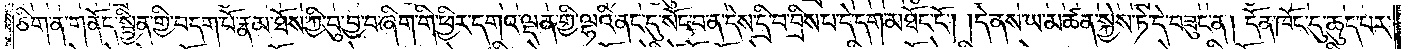ཅིག་ན་གནོད་སྦྱིན་གྱི་བདག་པོ་རྣམ་ཐོས་ཀྱི་བུ་བྱ་བ་ཞིག་གི་ཕྱིར་དགའ་ལྡན་གྱི་ལྷའི་ནང་དུ་སོང་བ་ན་དེས་དྲི་བ་བྲིས་པ་དེ་དག་མཐོང་ངོ༌། །དེ་ནས་ཡ་མཚན་སྐྱེས་ཏེ་དེ་བཟུང་ན། དོན་ཁོང་དུ་ཆུད་པར་
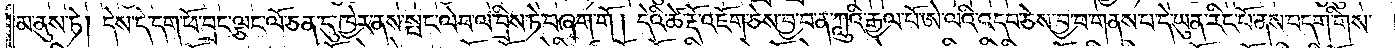མ་ནུས་ཏེ། དེས་དེ་དག་ཕོ་བྲང་ལྕང་ལོ་ཅན་དུ་ཁྱེར་ནས་སྤང་ལེབ་ལ་བྲིས་ཏེ་བཞག་གོ། དེའི་ཚེ་རྡོ་འཇོག་ཅེས་བྱ་བ་ན་ཀླུའི་རྒྱལ་པོ་ཨེ་ལའི་འདབ་ཅེས་བྱ་བ་གནས་པ་དེ་ཡུན་རིང་པོ་ནས་བདག་གིས་
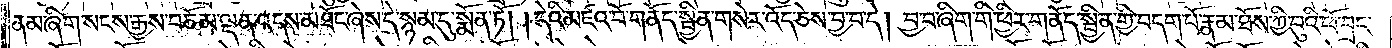ནམ་ཞིག་སངས་རྒྱས་བཅོམ་ལྡན་འདས་མཐོང་ཞེས་དེ་སྙམ་དུ་སྨོན་ཏོ། །དེའི་མཛའ་བོ་གནོད་སྦྱིན་གསེར་འོད་ཅེས་བྱ་བ་དེ། བྱ་བ་ཞིག་གི་ཕྱིར་གནོད་སྦྱིན་གྱི་བདག་པོ་རྣམ་ཐོས་ཀྱི་བུའི་ཕོ་བྲང་
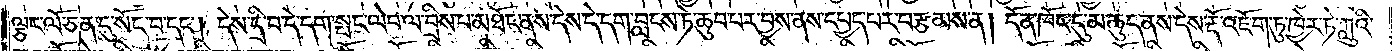ལྕང་ལོ་ཅན་དུ་སོང་བ་དང༌། དེས་དྲི་བ་དེ་དག་སྤང་ལེབ་ལ་བྲིས་པ་མཐོང་ནས་དེས་དེ་དག་བླངས་ཏེ་ཆུབ་པར་བྱས་ནས་དཔྱད་པར་བརྩམས་ན། དོན་ཁོང་དུ་མ་ཆུད་ནས་དེས་རྡོ་འཇོག་ཏུ་ཁྱེར་ཏེ་ཀླུའི་
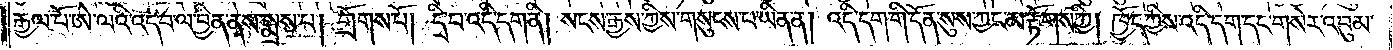རྒྱལ་པོ་ཨེ་ལའི་འདབ་ལ་བྱིན་ནས་སྨྲས་པ། གྲོགས་པོ། དྲི་བ་འདི་དག་ནི། སངས་རྒྱས་ཀྱིས་གསུངས་པ་ཡིན་ན། འདི་དག་གི་དོན་སུས་ཀྱང་མ་རྟོགས་ཀྱི། ཁྱོད་ཀྱིས་འདི་དག་དང་གསེར་འབུམ་
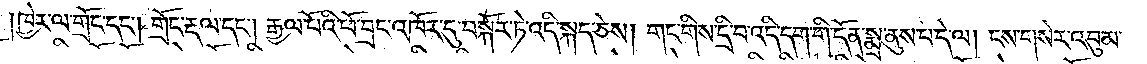ཁྱེར་ལ་གྲོང་དང༌། གྲོང་རྡལ་དང༌། རྒྱལ་པོའི་ཕོ་བྲང་འཁོར་དུ་བསྐོར་ཏེ་འདི་སྐད་ཅེས། གང་གིས་དྲི་བ་འདི་དག་གི་དོན་སྨྲ་ནུས་པ་དེ་ལ། ངས་གསེར་འབུམ་
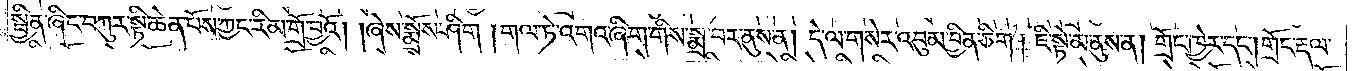སྦྱིན་ཞིང་བཀུར་སྟི་ཆེན་པོས་ཀྱང་རིམ་གྲོ་བྱའོ། །ཞེས་སྨྲོས་ཤིག །གལ་ཏེ་འགའ་ཞིག་གིས་སྨྲ་བར་ནུས་ན། དེ་ལ་གསེར་འབུམ་བྱིན་ཅིག། ཇི་སྟེ་མ་ནུས་ན། གྲོང་ཁྱེར་དང༌། གྲོང་རྡལ་
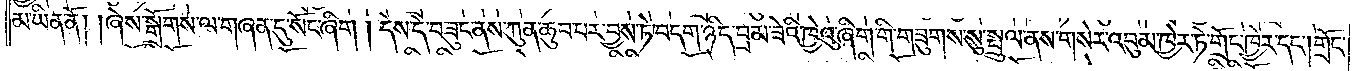མ་ཡིན་ནོ། །ཞེས་སྒྲོགས་ལ་གཞན་དུ་སོང་ཞིག། དེས་དེ་བཟུང་ནས་ཀུན་ཆུབ་པར་བྱས་ཏེ་བདག་ཉིད་བྲམ་ཟེའི་ཁྱེའུ་ཞིག་གི་གཟུགས་སུ་སྤྲུལ་ནས་གསེར་འབུམ་ཁྱེར་ཏེ་གྲོང་ཁྱེར་དང༌། གྲོང་
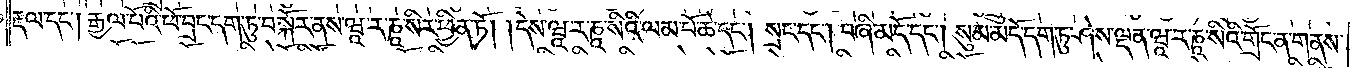རྡལ་དང༌། རྒྱལ་པོའི་ཕོ་བྲང་དག་ཏུ་བསྐོར་ནས་ཝཱ་ར་ཎཱ་སིར་ཕྱིན་ཏོ། །དེས་ཝཱ་ར་ཎཱ་སིའི་ལམ་པོ་ཆེ་དང༌། སྲང་དང༌། བཞི་མདོ་དང༌། སུམ་མདོ་དག་ཏུ་ཤེས་ལྡན་ཝཱ་ར་ཎཱ་སིའི་གྲོང་ན་གནས་
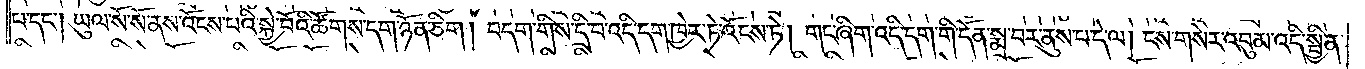པ་དང༌། ཡུལ་སོ་སོ་ནས་འོངས་པའི་སྐྱེ་བོའི་ཚོགས་དག་ཉོན་ཅིག། བདག་གིས་དྲི་བ་འདི་དག་ཁྱེར་ཏེ་འོངས་ཏེ། གང་ཞིག་འདི་དག་གི་དོན་སྨྲ་བར་ནུས་པ་དེ་ལ། ངས་གསེར་འབུམ་འདི་སྦྱིན་
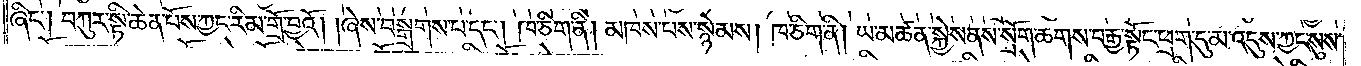ཞིང༌། བཀུར་སྟི་ཆེན་པོས་ཀྱང་རིམ་གྲོ་བྱའོ། །ཞེས་བསྒྲགས་པ་དང༌། ཁ་ཅིག་ནི། མཁས་པས་སྙེམས། ཁ་ཅིག་ནི། ཡ་མཚན་སྐྱེས་ནས་སྲོག་ཆགས་བརྒྱ་སྟོང་ཕྲག་དུ་མ་འདུས་ཀྱང་སུས་
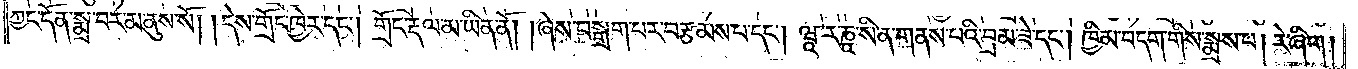ཀྱང་དོན་སྨྲ་བར་མ་ནུས་སོ། །དེས་གྲོང་ཁྱེར་དང༌། གྲོང་རྡལ་མ་ཡིན་ནོ། །ཞེས་བསྒྲག་བར་བརྩམས་པ་དང༌། ཝཱ་ར་ཎཱ་སི་ན་གནས་པའི་བྲམ་ཟེ་དང༌། ཁྱིམ་བདག་གིས་སྨྲས་པ། རེ་ཞིག།
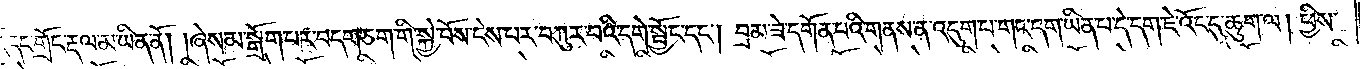གྲོང་དང་གྲོང་རྡལ་མ་ཡིན་ནོ། །ཞེས་མ་སྒྲོག་པར་བདག་ཅག་གི་སྐྱེ་བོས་ངེས་པར་བཀུར་བའི་དགེ་སྦྱོང་དང༌། བྲམ་ཟེ་དགོན་པའི་གནས་ན་འདུག་པ་གང་དག་ཡིན་པ་དེ་དག་ཇེ་འོང་དུ་ཆུག་ལ། ཕྱིས་
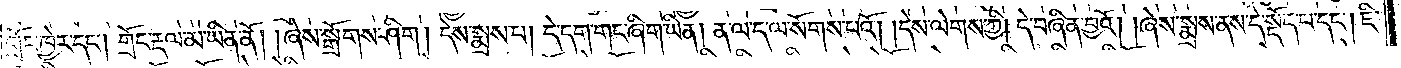གྲོང་ཁྱེར་དང༌། གྲོང་རྡལ་མ་ཡིན་ནོ། །ཞེས་སྒྲོགས་ཤིག། དེས་སྨྲས་པ། དེ་དག་གང་ཞིག་ཡིན། ན་ལ་ད་ལ་སོགས་པའོ། །དེས་ལེགས་ཀྱི། དེ་བཞིན་བྱའོ། །ཞེས་སྨྲས་ནས་དེ་སྡོད་པ་དང༌། ཇི་
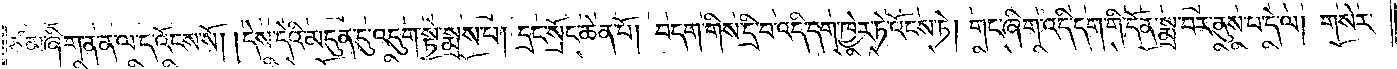ཙམ་ཞིག་ན་ན་ལ་ད་འོངས་སོ། །དེས་དེའི་མདུན་དུ་འདུག་སྟེ་སྨྲས་པ། དྲང་སྲོང་ཆེན་པོ། བདག་གིས་དྲི་བ་འདི་དག་ཁྱེར་ཏེ་འོངས་ཏེ། གང་ཞིག་འདི་དག་གི་དོན་སྨྲ་བར་ནུས་པ་དེ་ལ། གསེར་
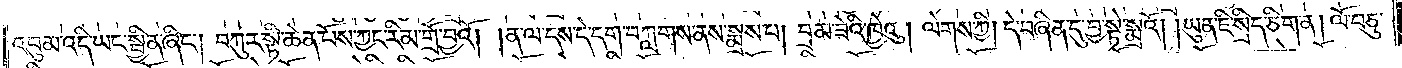འབུམ་འདི་ཡང་སྦྱིན་ཞིང༌། བཀུར་སྟི་ཆེན་པོས་ཀྱང་རིམ་གྲོ་བྱའོ། །ན་ལ་དས་དེ་དག་བཀླགས་ནས་སྨྲས་པ། བྲམ་ཟེའི་ཁྱེའུ། ལེགས་ཀྱི། དེ་བཞིན་དུ་བྱ་སྟེ། སྨྲའོ། །ཡུན་ཇི་སྲིད་ཅིག་ན། ལོ་བཅུ་
